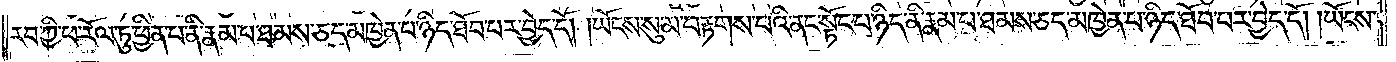རབ་ཀྱི་ཕ་རོལ་ཏུ་ཕྱིན་པ་ནི་རྣམ་པ་ཐམས་ཅད་མཁྱེན་པ་ཉིད་ཐོབ་པར་བྱེད་དོ། །ཡོངས་སུ་མ་བརྟགས་པའི་ནང་སྟོང་པ་ཉིད་ནི་རྣམ་པ་ཐམས་ཅད་མཁྱེན་པ་ཉིད་ཐོབ་པར་བྱེད་དོ། །ཡོངས་
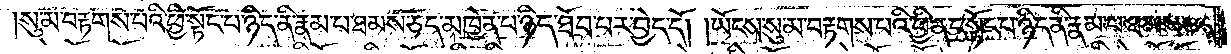སུ་མ་བརྟགས་པའི་ཕྱི་སྟོང་པ་ཉིད་ནི་རྣམ་པ་ཐམས་ཅད་མཁྱེན་པ་ཉིད་ཐོབ་པར་བྱེད་དོ། །ཡོངས་སུ་མ་བརྟགས་པའི་ཕྱི་ནང་སྟོང་པ་ཉིད་ནི་རྣམ་པ་ཐམས་ཅད་
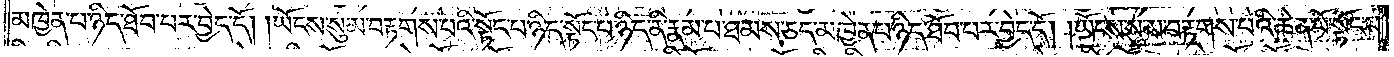མཁྱེན་པ་ཉིད་ཐོབ་པར་བྱེད་དོ། །ཡོངས་སུ་མི་བརྟགས་པའི་སྟོང་པ་ཉིད་སྟོང་པ་ཉིད་ནི་རྣམ་པ་ཐམས་ཅད་མཁྱེན་པ་ཉིད་ཐོབ་པར་བྱེད་དོ། །ཡོངས་སུ་མ་བརྟགས་པའི་ཆེན་པོ་སྟོང་པ་
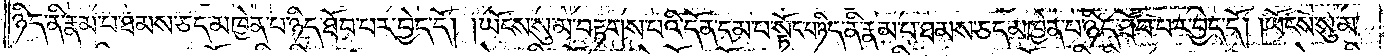ཉིད་ནི་རྣམ་པ་ཐམས་ཅད་མཁྱེན་པ་ཉིད་ཐོབ་པར་བྱེད་དོ། །ཡོངས་སུ་མ་བརྟགས་པའི་དོན་དམ་པ་སྟོང་པ་ཉིད་ནི་རྣམ་པ་ཐམས་ཅད་མཁྱེན་པ་ཉིད་ཐོབ་པར་བྱེད་དོ། །ཡོངས་སུ་མ་
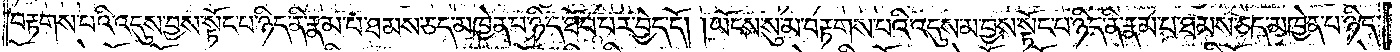བརྟགས་པའི་འདུས་བྱས་སྟོང་པ་ཉིད་ནི་རྣམ་པ་ཐམས་ཅད་མཁྱེན་པ་ཉིད་ཐོབ་པར་བྱེད་དོ། །ཡོངས་སུ་མ་བརྟགས་པའི་འདུས་མ་བྱས་སྟོང་པ་ཉིད་ནི་རྣམ་པ་ཐམས་ཅད་མཁྱེན་པ་ཉིད་
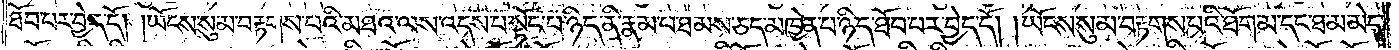ཐོབ་པར་བྱེད་དོ། །ཡོངས་སུ་མ་བརྟགས་པའི་མཐའ་ལས་འདས་པ་སྟོང་པ་ཉིད་ནི་རྣམ་པ་ཐམས་ཅད་མཁྱེན་པ་ཉིད་ཐོབ་པར་བྱེད་དོ། །ཡོངས་སུ་མ་བརྟགས་པའི་ཐོབ་མ་དང་ཐ་མ་མེད་
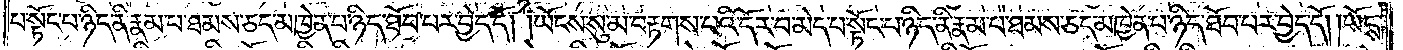པ་སྟོང་པ་ཉིད་ནི་རྣམ་པ་ཐམས་ཅད་མཁྱེན་པ་ཉིད་ཐོབ་པར་བྱེད་དོ། །ཡོངས་སུ་མ་བརྟགས་པའི་དོར་བ་མེད་པ་སྟོང་པ་ཉིད་ནི་རྣམ་པ་ཐམས་ཅད་མཁྱེན་པ་ཉིད་ཐོབ་པར་བྱེད་དོ། །ཡོངས་
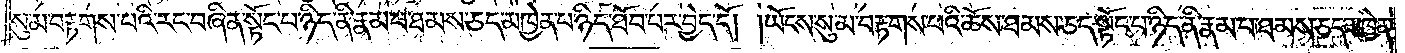སུ་མ་བརྟགས་པའི་རང་བཞིན་སྟོང་པ་ཉིད་ནི་རྣམ་པ་ཐམས་ཅད་མཁྱེན་པ་ཉིད་ཐོབ་པར་བྱེད་དོ། །ཡོངས་སུ་མ་བརྟགས་པའི་ཆོས་ཐམས་ཅད་སྟོང་པ་ཉིད་ནི་རྣམ་པ་ཐམས་ཅད་མཁྱེན་
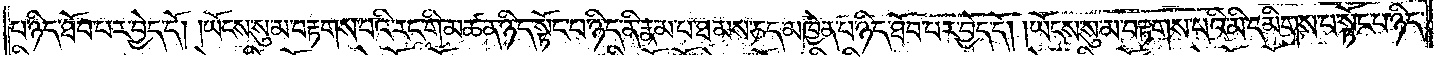པ་ཉིད་ཐོབ་པར་བྱད་དོ། །ཡོངས་སུ་མ་བརྟགས་པའི་རང་གི་མཚན་ཉིད་སྟོང་པ་ཉིད་ནི་རྣམ་པ་ཐམས་ཅད་མཁྱེན་པ་ཉིད་ཐོབ་པར་བྱེད་དོ། །ཡོངས་སུ་མ་བརྟགས་པའི་མི་དམིགས་པ་སྟོང་པ་ཉིད་
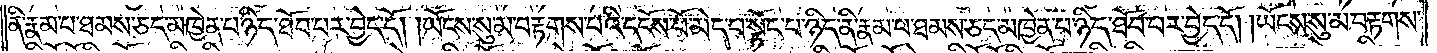ནི་རྣམ་པ་ཐམས་ཅད་མཁྱེན་པ་ཉིད་ཐོབ་པར་བྱེད་དོ། །ཡོངས་སུ་མ་བརྟགས་པའི་དངོས་པོ་མེད་པ་སྟོང་པ་ཉིད་ནི་རྣམ་པ་ཐམས་ཅད་མཁྱེན་པ་ཉིད་ཐོབ་པར་བྱེད་དོ། །ཡོངས་སུ་མ་བརྟགས་
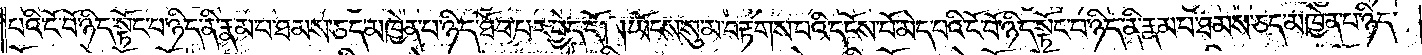པའི་ངོ་བོ་ཉིད་སྟོང་པ་ཉིད་ནི་རྣམ་པ་ཐམས་ཅད་མཁྱེན་པ་ཉིད་ཐོབ་པར་བྱེད་དོ། །ཡོངས་སུ་མ་བརྟགས་པའི་དངོས་པོ་མེད་པའི་ངོ་བོ་ཉིད་སྟོང་པ་ཉིད་ནི་རྣམ་པ་ཐམས་ཅད་མཁྱེན་པ་ཉིད་
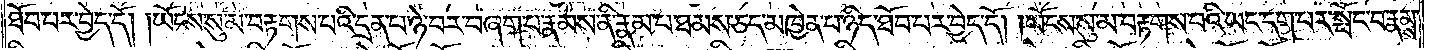ཐོབ་པར་བྱེད་དོ། །ཡོངས་སུ་མ་བརྟགས་པའི་དྲན་པ་ཉེ་བར་བཞག་པ་རྣམས་ནི་རྣམ་པ་ཐམས་ཅད་མཁྱེན་པ་ཉིད་ཐོབ་པར་བྱེད་དོ། །ཡོངས་སུ་མ་བརྟགས་པའི་ཡང་དག་པར་སྤོང་བ་རྣམས་
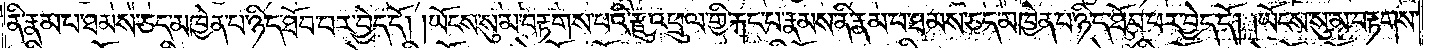ནི་རྣམ་པ་ཐམས་ཅད་མཁྱེན་པ་ཉིད་ཐོབ་པར་བྱེད་དོ། །ཡོངས་སུ་མ་བརྟགས་པའི་རྫུ་འཕྲུལ་གྱི་རྐང་པ་རྣམས་ནི་རྣམ་པ་ཐམས་ཅད་མཁྱེན་པ་ཉིད་ཐོབ་པར་བྱེད་དོ། །ཡོངས་སུ་མ་བརྟགས་
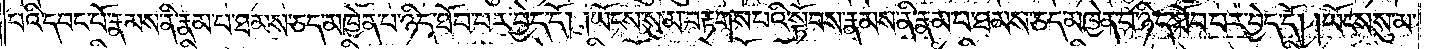པའི་དབང་པོ་རྣམས་ནི་རྣམ་པ་ཐམས་ཅད་མཁྱེན་པ་ཉིད་ཐོབ་པར་བྱེད་དོ། །ཡོངས་སུ་མ་བརྟགས་པའི་སྟོབས་རྣམས་ནི་རྣམ་པ་ཐམས་ཅད་མཁྱེན་པ་ཉིད་ཐོབ་པར་བྱེད་དོ། །ཡོངས་སུ་མ་
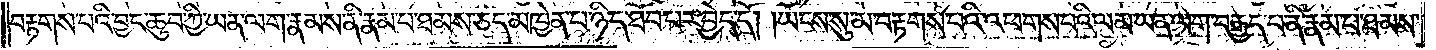བརྟགས་པའི་བྱང་ཆུབ་ཀྱི་ཡན་ལག་རྣམས་ནི་རྣམ་པ་ཐམས་ཅད་མཁྱེན་པ་ཉིད་ཐོབ་པར་བྱེད་དོ། །ཡོངས་སུ་མ་བརྟགས་པའི་འཕགས་པའི་ལམ་ཡན་ལག་བརྒྱད་པ་ནི་རྣམ་པ་ཐམས་
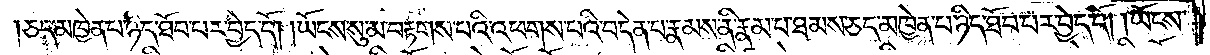ཅད་མཁྱེན་པ་ཉིད་ཐོབ་པར་བྱེད་དོ། །ཡོངས་སུ་མ་བརྟགས་པའི་འཕགས་པའི་བདེན་པ་རྣམས་ནི་རྣམ་པ་ཐམས་ཅད་མཁྱེན་པ་ཉིད་ཐོབ་པར་བྱེད་དོ། །ཡོངས་
